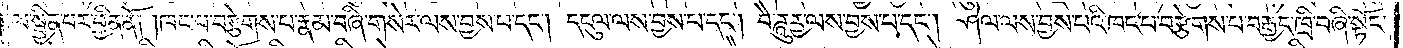ལ་སྦྱིན་པར་བྱིན་ནོ། །ཁང་པ་བརྩེགས་པ་རྣམ་བཞི་གསེར་ལས་བྱས་པ་དང༌། དངུལ་ལས་བྱས་པ་དང༌། བཻ་ཌཱུརྱ་ལས་བྱས་པ་དང༌། ཤེལ་ལས་བྱས་པའི་ཁང་པ་བརྩེགས་པ་བརྒྱད་ཁྲི་བཞི་སྟོང་
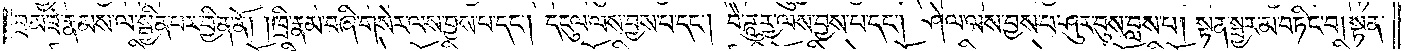བྲམ་ཟེ་རྣམས་ལ་སྦྱིན་པར་བྱིན་ནོ། །ཁྲི་རྣམ་བཞི་གསེར་ལས་བྱས་པ་དང༌། དངུལ་ལས་བྱས་པ་དང༌། བཻ་ཌཱུརྱ་ལས་བྱས་པ་དང༌། ཤེལ་ལས་བྱས་པ་ཤུར་བུས་བླས་པ། སྟན་སྦྱར་མ་བཏིང་བ། སྟན་
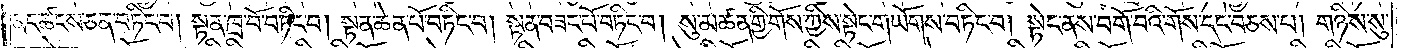ནང་ཚངས་ཅན་བཏིང་བ། སྟན་ཁྲ་བོ་བཏིང་བ། སྟན་ཆེན་པོ་བཏིང་བ། སྟན་བཟང་པོ་བཏིང་བ། སུ་མཚན་གྱི་གོས་ཀྱིས་སྟེང་གཡོགས་བཏིང་བ། སྟེང་ནས་བགོ་བའི་གོས་དང་བཅས་པ། གཉིས་སུ་
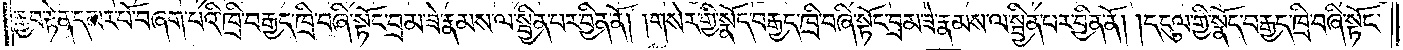རྒྱབ་རྟེན་དམར་པོ་བཞག་པའི་ཁྲི་བརྒྱད་ཁྲི་བཞི་སྟོང་བྲམ་ཟེ་རྣམས་ལ་སྦྱིན་པར་བྱིན་ནོ། །གསེར་གྱི་སྣོད་བརྒྱད་ཁྲི་བཞི་སྟོང་བྲམ་ཟེ་རྣམས་ལ་སྦྱིན་པར་བྱིན་ནོ། །དངུལ་གྱི་སྣོད་བརྒྱད་ཁྲི་བཞི་སྟོང་
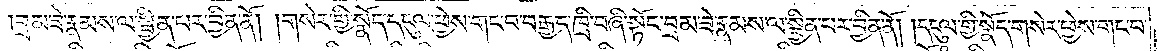བྲམ་ཟེ་རྣམས་ལ་སྦྱིན་པར་བྱིན་ནོ། །གསེར་གྱི་སྣོད་དངུལ་ཕྱེས་གང་བ་བརྒྱད་ཁྲི་བཞི་སྟོང་བྲམ་ཟེ་རྣམས་ལ་སྦྱིན་པར་བྱིན་ནོ། །དངུལ་གྱི་སྣོད་གསེར་ཕྱེས་གང་བ་
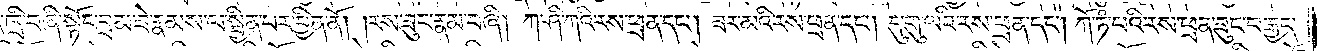ཁྲི་བཞི་སྟོང་བྲམ་ཟེ་རྣམས་ལ་སྦྱིན་པར་བྱིན་ནོ། །རས་ཟུང་རྣམ་བཞི། ཀ་ཤི་ཀའི་རས་ཕྲན་དང༌། ཟར་མའི་རས་ཕྲན་དང༌། དུ་གུ་ལའི་རས་ཕྲན་དང༌། ཀོ་ཏཾ་པའི་རས་ཕྲན་ཟུང་བརྒྱད་
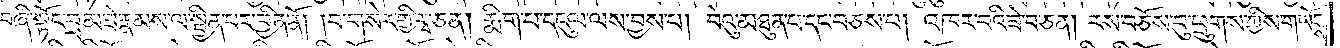བཞི་སྟོང་བྲམ་ཟེ་རྣམས་ལ་སྦྱིན་པར་བྱིན་ནོ། །བ་གསེར་གྱི་རྭ་ཅན། རྨིག་པ་དངུལ་ལས་བྱས་པ། བེའུ་མཐུན་པ་དང་བཅས་པ། འཁར་བའི་ཟེ་བ་ཅན། རས་བཅོས་བུ་ཕྲུགས་ཀྱིས་གཡོགས་
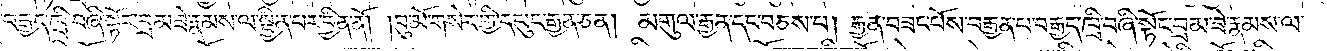བརྒྱད་ཁྲི་བཞི་སྟོང་བྲམ་ཟེ་རྣམས་ལ་སྦྱིན་པར་བྱིན་ནོ། །བུ་མོ་གསེར་གྱི་དཔུང་རྒྱན་ཅན། མགུལ་རྒྱན་དང་བཅས་པ། རྒྱན་བཟང་པོས་བརྒྱན་པ་བརྒྱད་ཁྲི་བཞི་སྟོང་བྲམ་ཟེ་རྣམས་ལ་
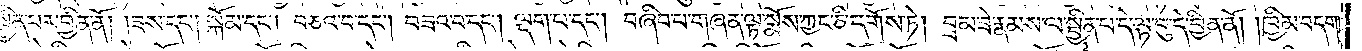སྦྱིན་པར་བྱིན་ནོ། །ཟས་དང༌། སྐོམ་དང༌། བཅའ་བ་དང༌། བཟའ་བ་དང༌། ལྡག་པ་དང༌། བཞིབ་པ་གཞན་ལྟ་སྨོས་ཀྱང་ཅི་དགོས་ཏེ། བྲམ་ཟེ་རྣམས་ལ་སྦྱིན་པ་དེ་ལྟ་བུ་དེ་བྱིན་ནོ། །ཁྱིམ་བདག་
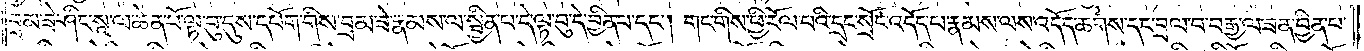བྲམ་ཟེ་ཤིང་སཱ་ལ་ཆེན་པོ་ལྟ་བུ་དུས་དཔོག་གིས་བྲམ་ཟེ་རྣམས་ལ་སྦྱིན་པ་དེ་ལྟ་བུ་དེ་བྱིན་པ་དང༌། གང་གིས་ཕྱི་རོལ་པའི་དྲང་སྲོང་འདོད་པ་རྣམས་ལས་འདོད་ཆགས་དང་བྲལ་བ་བརྒྱ་ལ་ཟན་བྱིན་པ་
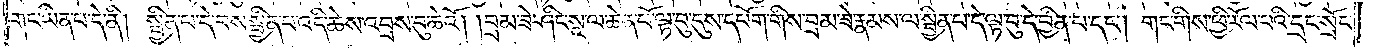གང་ཡིན་པ་དེ་ནི། སྦྱིན་པ་དེ་བས་སྦྱིན་པ་འདི་ཆེས་འབྲས་བུ་ཆེའོ། །བྲམ་ཟེ་ཤིང་སཱ་ལ་ཆེན་པོ་ལྟ་བུ་དུས་དཔོག་གིས་བྲམ་ཟེ་རྣམས་ལ་སྦྱིན་པ་དེ་ལྟ་བུ་དེ་བྱིན་པ་དང༌། གང་གིས་ཕྱི་རོལ་པའི་དྲང་སྲོང་
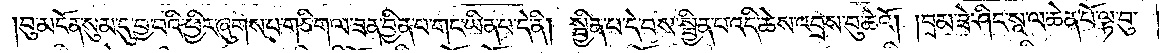བུ་མངོན་སུམ་དུ་བྱ་བའི་ཕྱིར་ཞུགས་པ་གཅིག་ལ་ཟན་བྱིན་པ་གང་ཡིན་པ་དེ་ནི། སྦྱིན་པ་དེ་བས་སྦྱིན་པ་འདི་ཆེས་འབྲས་བུ་ཆེའོ། །བྲམ་ཟེ་ཤིང་སཱ་ལ་ཆེན་པོ་ལྟ་བུ་
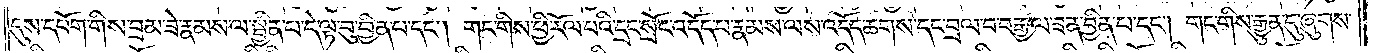དུས་དཔོག་གིས་བྲམ་ཟེ་རྣམས་ལ་སྦྱིན་པ་དེ་ལྟ་བུ་བྱིན་པ་དང༌། གང་གིས་ཕྱི་རོལ་པའི་དྲང་སྲོང་འདོད་པ་རྣམས་ལས་འདོད་ཆགས་དང་བྲལ་བ་བརྒྱ་ལ་ཟན་བྱིན་པ་དང༌། གང་གིས་རྒྱུན་དུ་ཞུགས་
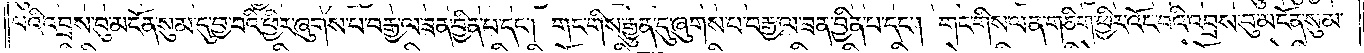པའི་འབྲས་བུ་མངོན་སུམ་དུ་བྱ་བའི་ཕྱིར་ཞུགས་པ་བརྒྱ་ལ་ཟན་བྱིན་པ་དང༌། གང་གིས་རྒྱུན་དུ་ཞུགས་པ་བརྒྱ་ལ་ཟན་བྱིན་པ་དང༌། གང་གིས་ལན་གཅིག་ཕྱིར་འོང་བའི་འབྲས་བུ་མངོན་སུམ་
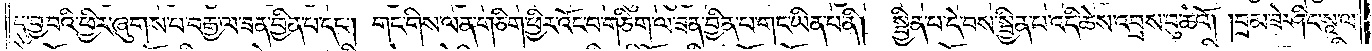དུ་བྱ་བའི་ཕྱིར་ཞུགས་པ་བརྒྱ་ལ་ཟན་བྱིན་པ་དང༌། གང་གིས་ལན་གཅིག་ཕྱིར་འོང་བ་གཅིག་ལ་ཟན་བྱིན་པ་གང་ཡིན་པ་ནི། སྦྱིན་པ་དེ་བས་སྦྱིན་པ་འདི་ཆེས་འབྲས་བུ་ཆེའོ། །བྲམ་ཟེ་ཤིང་སཱ་ལ་
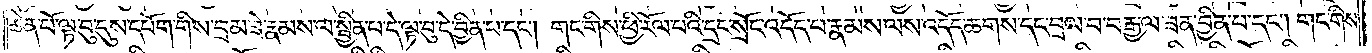ཆེན་པོ་ལྟ་བུ་དུས་དཔོག་གིས་བྲམ་ཟེ་རྣམས་ལ་སྦྱིན་པ་དེ་ལྟ་བུ་དེ་བྱིན་པ་དང༌། གང་གིས་ཕྱི་རོལ་པའི་དྲང་སྲོང་འདོད་པ་རྣམས་ལས་འདོད་ཆགས་དང་བྲལ་བ་བརྒྱ་ལ་ཟན་བྱིན་པ་དང༌། གང་གིས་
